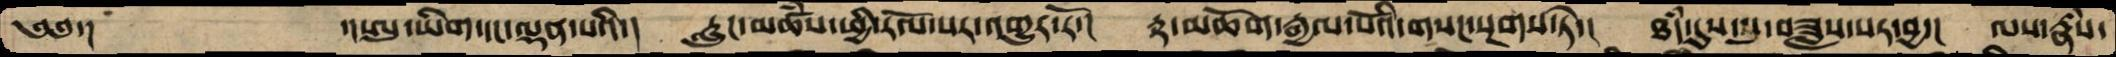༄༅་།       ་།ཨུ་ཡིག་དང་ལྡན་པའི་།  རླུང་མཚཾས་ཕྱི་རོལ་པར་འགྱུར་རོ་།  རྟ་མཆོག་རྒྱལ་པོའི་གསང་སྔགས་ཏེ་།  ཐདཾ་དུས་སུ་བཟླས་པར་བྱ་།  ལས་རྣཾས་
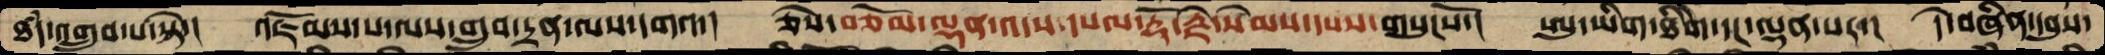ཐདཾ་འགྲུབ་པ་སྟེ་།   འཇོམས་པ་ལས་གྲུབ་དྲན་ལས་དགའ་།  ཅེས་བཅོམ་ལྡན་འདས་དཔལ་རྡོ་རྗེ་སེམས་དཔས་གསུངསོ་།  ཨུ་ཡིག་ཐིེག་དང་ལྡན་པར་།  དེ་བཞིན་དབུས་
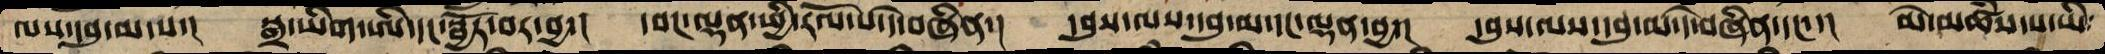ལས་དབུ་མ་པ་།  སྒྲ་ཡིག་ཨི་དང་སྦྱོར་བར་བྱ་།  དབང་ལྡན་ཕྱི་རོལ་པ་དེ་བཞིན་།  དབུས་ལས་དབུ་མ་དང་ལྡན་བྱ་།  དབུས་ལས་དབུ་མ་དེ་བཞིན་དང་་།  མེ་མཚཾས་པ་ཡི་
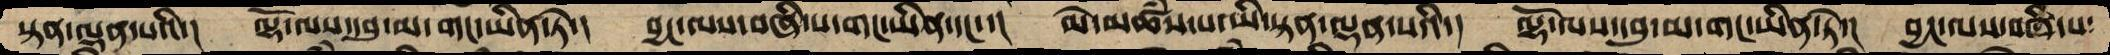སྟན་ལྡན་པའི་།  ལྷོ་ལས་དབུ་མ་གང་ཡིན་ཏེ་།  བྱང་ལས་བཞི་པ་གང་ཡིན་དང་་།  མེ་མཚཾས་པ་ཡི་སྟན་ལྡན་པའི་།  ལྷོ་ལས་དབུ་མ་གང་ཡིན་ཏེ་།  བྱང་ལས་བཞི་པ་
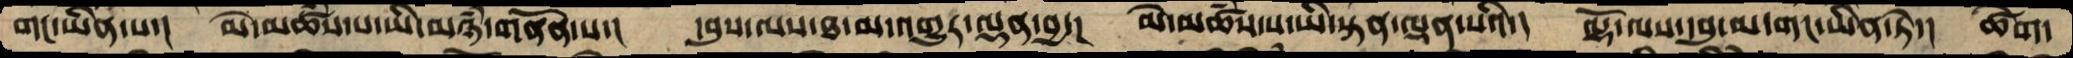གང་ཡིན་པ་།  མེ་མཚཾས་པ་ཡི་མཉཾ་གནོན་པ་།  དབུས་ལས་ཐ་མ་འགྱུར་ལྡན་བྱ་།  མེ་མཚཾས་པ་ཡི་སྟན་ལྡན་པའི་།  ལྷོ་ལས་དབུ་མ་གང་ཡིན་ཏེ་།  ཚེག་
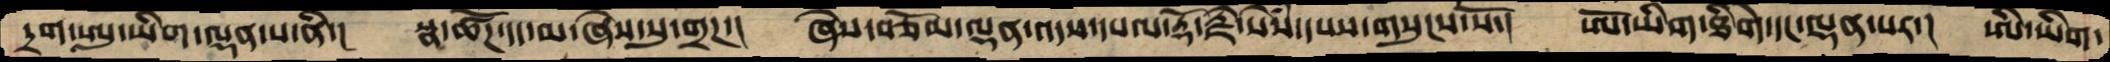དྲག་ཨུ་ཡིག་ལྡན་པ་ནི་།  སྣ་ཚོཌ་དད་མ་ཞེས་སུ་གྲཌ་།  ཞེས་བཅོམ་ལྡན་འདས་དཔལ་རྡོ་རྗེ་སེཾས་དཔས་གསུངས་སོ་།  ཨོ་ཡིག་ཐིགེ་དང་ལྡན་པར་།  ཨི་ཡིག་
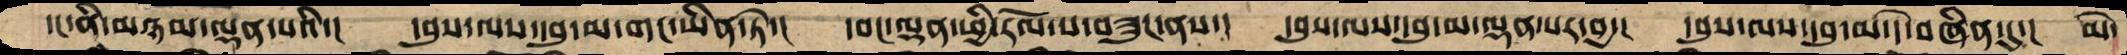དང་ནི་མཉམ་ལྡན་པའི་།  དབུས་ལས་དབུ་མ་གང་ཡིན་ཏེ་།  དབང་ལྡན་ཕྱི་རོལ་པ་བཟུང་ནས་།  དབུས་ལས་དབུ་མ་ལྡན་པར་བྱ་།  དབུས་ལས་དབུ་མ་དེ་བཞིན་དུ་།  མེ་
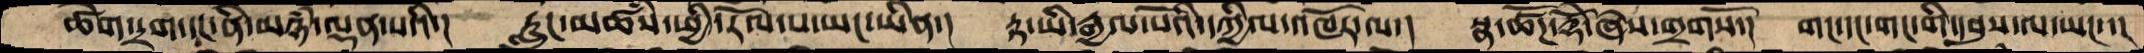ཚེག་དྲག་དང་ནི་མཉཾ་ལྡན་པའི་།  རླུང་མཚཾས་ཕྱི་རོལ་པ་ཡང་ཡིན་།  རྟ་ཡི་རྒྱལ་པོའི་དཀྱིལ་འཁོར་ལ་།  སྣ་ཚོཌ་རྡོེ་ཞེས་གྲགསོ་།  གང་དང་གང་གི་དབུས་ལ་ཡང་་།
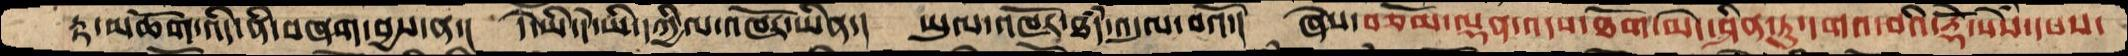རྟ་མཆོག་འདི་ནི་བཞག་བྱས་ན་།  དེ་ཡི་དེ་ཡི་དཀྱིལ་འཁོར་ཡིན་།  ཡུལ་འཁོར་ཐདཾ་འདུལ་བའོ་།  ཞེས་བཅོམ་ལྡན་འདས་ཐོག་མེད་ཤིན་ཏུ་དགའ་བའི་རྡོེ་སེཾས་དཔས་
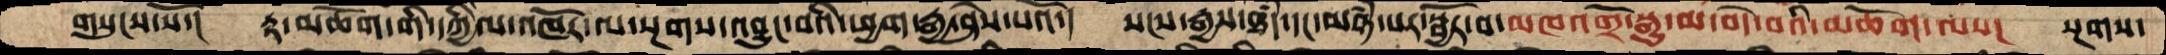གསུངས་སོ་།  རྟ་མཆོག་གི་དཀྱིལ་འཁོར་ལ་སྔགས་འབྱུང་བའི་ཕྱག་རྒྱ་ཤེས་པའོ་།  སངས་རྒྱས་ཐདཾ་དང་མཉཾ་པར་སྦྱོར་བ་མཁའ་འགྲོ་སྒྱུ་མ་བདེ་བའི་མཆོག་ལས་།  སྔགས་
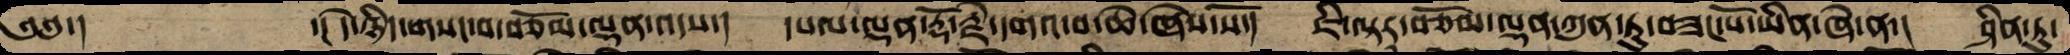༄༅་།     ་།དེ་ཉིད་གསང་བ་བཅོམ་ལྡན་འདས་།  དཔལ་ལྡན་རྡོ་རྗེ་དགའ་བ་ཆེ་ཞེས་སོ་།  ཇི་ལྟར་བཅོམ་ལྡན་ཀུན་ཏུ་བཟང་པོ་ཡིན་ཞེ་ན་།  ཤིན་ཏུ་
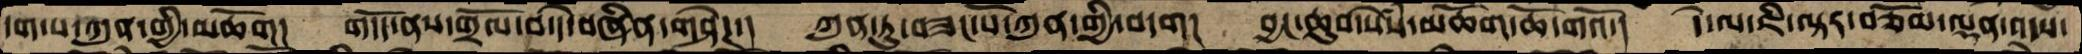དག་པ་ཀུན་གྱི་མཆོག།  གདོད་ནས་གྲོལ་བ་དེ་བཞིན་གཤེཌ་།  ཀུན་ཏུ་བཟང་པོ་ཀུན་གྱི་བདག།  བྱང་ཆུབ་སེཾས་མཆོག་ཆོ་གའོ་།  དེ་ལ་ཇི་ལྟར་བཅོམ་ལྡན་འདས་
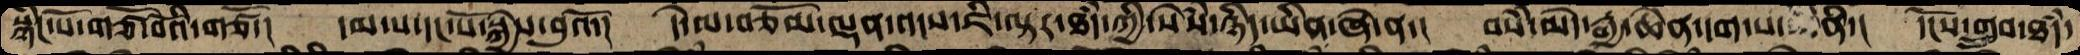སྙིང་པོ་གཙོ་བོའི་གཙོ་།  དམ་པ་དང་པོ་སྐྱེས་བུའོ་།  དེ་ལ་བཅོམ་ལྡན་འདས་ཇི་ལྟར་ཐདཾ་ཀྱི་སེཾས་ཉིད་ཡིན་ཞེ་ན་།  བསཾ་མེད་རྒྱ་ཆེན་དག་པ་  ནི་།  དངོས་གྲུབ་ཐདཾ་
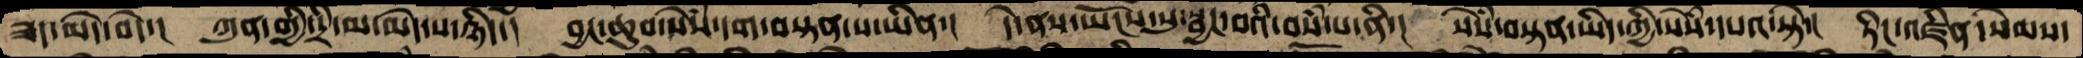ཟད་མེད་བདེ་།  ཀུན་གྱི་དྲི་མ་མེད་པ་ཉིད་།  བྱང་ཆུབ་སེཾས་དག་བསྟན་པ་ཡིན་།  དེ་ནས་ཡོངས་སུ་སྦྱང་བའི་བསཾ་པ་ནི་།  སེཾས་བསྟན་ཡིད་ཀྱི་སེཾས་དཔའ་སྟེ་།  ཏིང་འཛིན་སེམས་
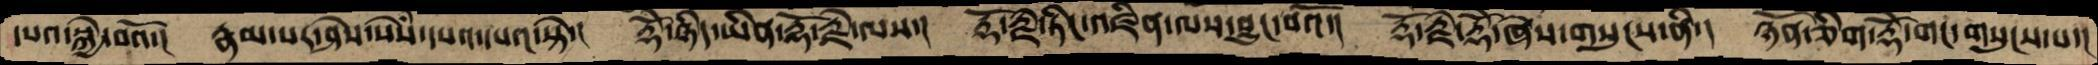དཔའ་སྐྱེ་བའོ་།  རྣམ་པར་ཤེས་སེཾས་དཔའ་དཔའ་སྟེ་།  རྡོེ་ཉིད་ཡིན་རྡོ་རྗེ་ལས་།  རྡོ་རྗེ་ཏིང་འཛིན་ལས་བྱུང་བའོ་།  རྡོ་རྗེ་རྡོེ་ཞེས་གསུངས་ནི་།  ཉོན་ཅིག་རྡོེ་གང་གསུངས་པ་།
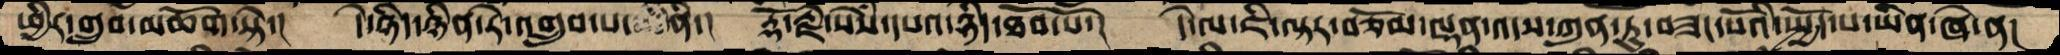ཕྱིར་གྲུབ་མཆོག་སྟེ་།  དེ་ཉིད་ཉིན་རེ་འགྲུབ་པ་  ནི་།  རྡོ་རྗེ་སེཾས་དཔའ་ཉིད་ཐོབ་སོ་།  དེ་ལ་ཇི་ལྟར་བཅོམ་ལྡན་འདས་ཀུན་ཏུ་བཟང་པོའི་སྤྱོད་པ་ཡིན་ཞེ་ན་།
